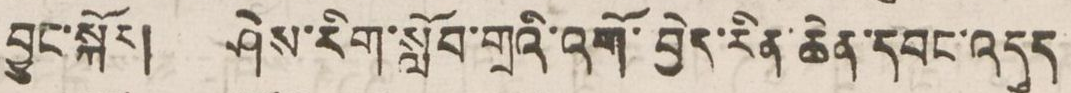བྱུང་སྐོར། ཤེས་རིག་སློབ་གྲའི་འོག་བྱེད་རིན་ཆེན་དབང་འདུད
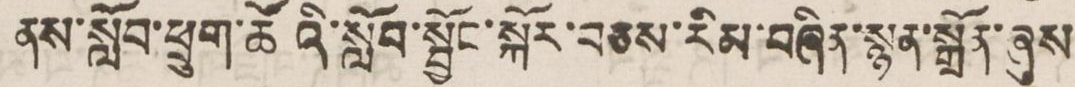ནས་སློབ་ཕྲུག་ཚོའི་སློབ་སྦྱོང་སྐོར་བཅས་རིམ་བཞིན་སྙན་སྒྲོན་ཞུས
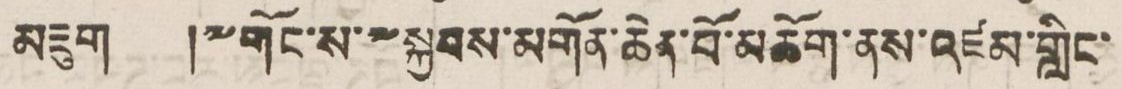མཇུག །༸གོང་ས་༸སྐྱབས་མགོན་ཆེན་པོ་མཆོག་ནས་འཛམ་གླིང་
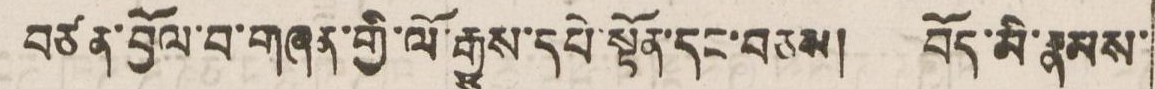བཙན་བྱོལ་བ་གཞན་གྱི་ལོ་རྒྱུས་དཔེ་སྟོན་དང་བཅས། བོད་མི་རྣམས་
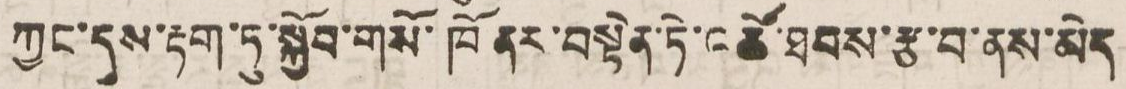ཀྱང་དུས་རྟག་ཏུ་སྐྱོབ་གསོ་ཁོ ནར་བསྟེག་ཏེ་འཚོ་ཐབས་རྩ་བ་ནས་མེད
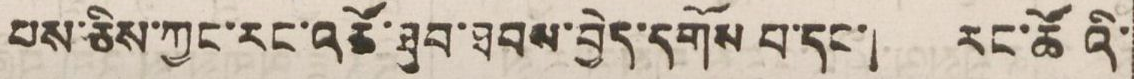པས་ཅིས་ཀྱང་རང་འཚོ་ཐུབ་ཐབས་བྱེད་དགོས པ་དང་། རང་ཚོའི་
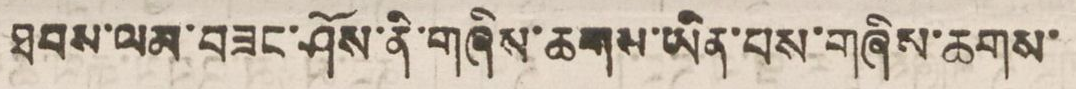ཐབས་ལམ་བཟང་ཤོས་ནི་གཞིས་ཆགས་ཡིན་པས་གཞིས་ཆགས་
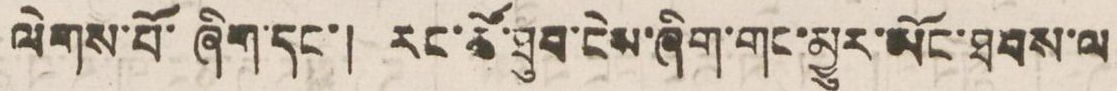ལེགས་པོ་ཞིག་དང་། རང་ཚོ་ཐུབ་ངེས་ཞིག་གང་མྱུར་མོང་ཐབས་ལ
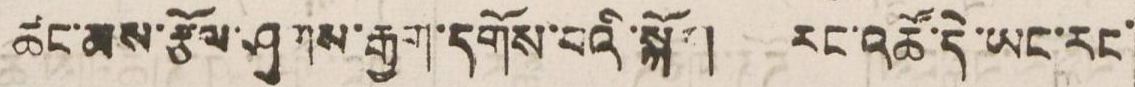ཚང་མས་རྩོལ་ཤུགས་རྒྱག་དགོས་པའི་སྐོར། རང་འཚོ་དེ་ཡང་རང་
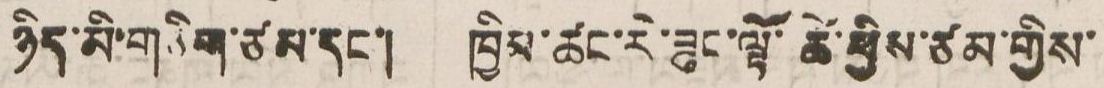ཉིད་མི་གཅིག་ཙམ་དང་། ཁྱིམ་ཚང་རེ་ཟུང་ལྟོ་ཚེ་ཕྱིས་ཙམ་གྱིས་
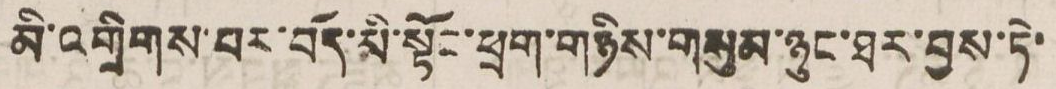མི་འགྲིགས་བར་བོད་མི་སྟོང་ཕྲག་གཉིས་གསུམ་ཉུང་ཐར་བྱས་ཏེ་
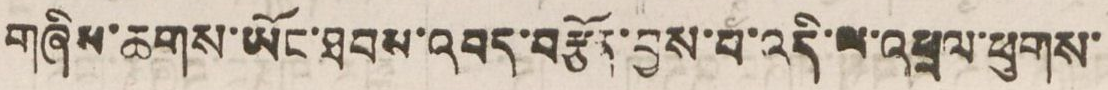གཞིས་ཆགས་ཡོང་ཐབས་འབད་བརྩོན་བྱས་པ་འདི་ལ་འཕྲལ་ཕུགས་
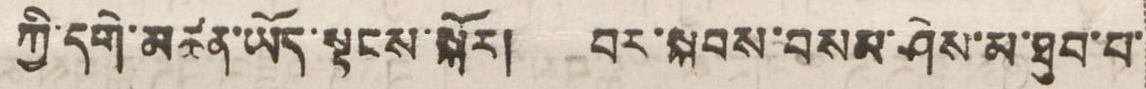ཀྱི་དགེ་མཚན་ཡོད་སྟངས་སྐོར། བར་སྐབས་བསམ་ཤེས་མ་ཐུབ་པ་
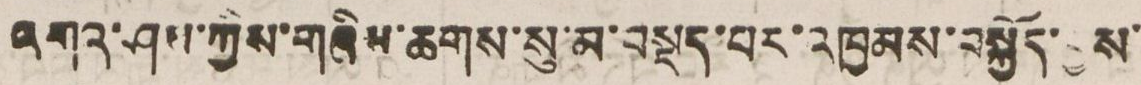འགའ་ཤས་ཀྱིས་གཞིས་ཆགས་སུ་མ་བསྡད་པར་འཁྱམས་བསྐྱོད་བྱས་
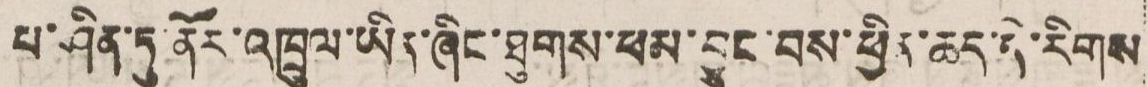པ་ཤིན་ཏུ་ནོར་འཁྲུལ་ཡིན་ཞིང་ཐུགས་ཕམ་བྱུང་པས་ཕྱིན་ཆད་དེ་རིགས
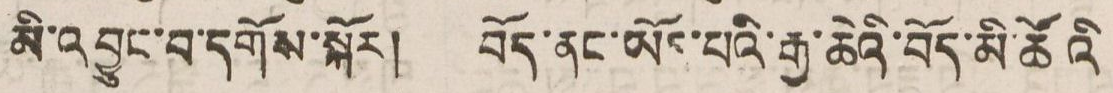མི་འབྱུང་བ་དགོས་སྐོར། བོད་ནང་ཡོང་པའི་རྒྱ་ཆེའི་བོད་མི་ཚོའི
